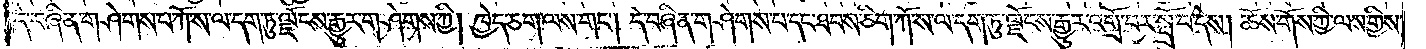དེ་བཞིན་གཤེགས་པ་ཀོ་ས་ལ་དག་ཏུ་ལྗོངས་རྒྱུར་གཤེགས་ཀྱི། ཁྱེད་ཅག་ལས་གང༌། དེ་བཞིན་གཤེགས་པ་དང་ཐབས་ཅིག་ཀོ་ས་ལ་དག་ཏུ་ལྗོངས་རྒྱུར་འགྲོ་བར་སྤྲོ་བ་དེས། ཆོས་གོས་ཀྱི་ལས་གྱིས་
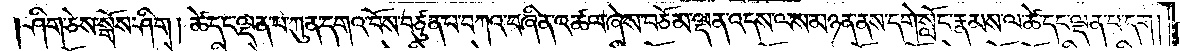ཤིག་ཅེས་སྒོས་ཤིག ། ཚེ་དང་ལྡན་པ་ཀུན་དགའ་བོས་བཙུན་པ་བཀའ་བཞིན་འཚལ་ཞེས་བཅོམ་ལྡན་འདས་ལས་མཉན་ནས་དགེ་སློང་རྣམས་ལ་ཚེ་དང་ལྡན་པ་དག །
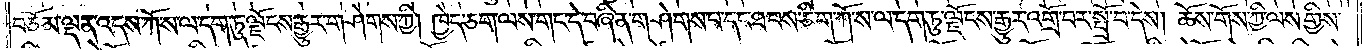བཅོམ་ལྡན་འདས་ཀོ་ས་ལ་དག་ཏུ་ལྗོངས་རྒྱུར་གཤེགས་ཀྱི། ཁྱེད་ཅག་ལས་གང་དེ་བཞིན་གཤེགས་པ་དང་ཐབས་ཅིག་ཀོ་ས་ལ་དག་ཏུ་ལྗོངས་རྒྱུར་འགྲོ་བར་སྤྲོ་བ་དེས། ཆོས་གོས་ཀྱི་ལས་གྱིས་
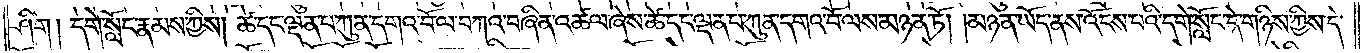ཤིག ། དགེ་སློང་རྣམས་ཀྱིས། ཚེ་དང་ལྡན་པ་ཀུན་དགའ་བོ་ལ་བཀའ་བཞིན་འཚལ་ཞེས་ཚེ་དང་ལྡན་པ་ཀུན་དགའ་བོ་ལས་མཉན་ཏོ། །མཉན་ཡོད་ནས་འོངས་པའི་དགེ་སློང་དེ་གཉིས་ཀྱིས་དེ་
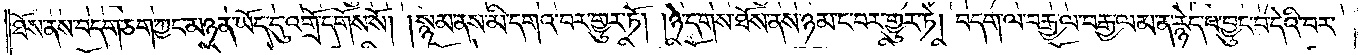ཐོས་ནས་བདག་ཅག་ཀྱང་མཉན་ཡོད་དུ་འགྲོ་དགོས་སོ། །སྙམ་ནས་མི་དགའ་བར་གྱུར་ཏོ། །ཉེ་དགས་ཐོས་ནས་ཉམ་ང་བར་གྱུར་ཏོ། བདག་ལ་བརྒྱ་ལ་བརྒྱ་ལམ་ན་རྙེད་པ་བྱུང་བ་དེའི་བར་
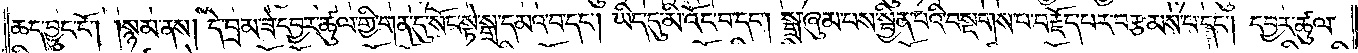ཆད་བྱུང་ངོ༌། །སྙམ་ནས། དེ་བྲམ་ཟེ་དབྱར་ཚུལ་གྱི་གན་དུ་སོང་སྟེ་སྒྲ་དམའ་བ་དང༌། ཡིད་དུ་མི་འོང་བ་དང༌། སྒྲ་ཞུམ་པས་སྦྱིན་པའི་བསྔགས་པ་བརྗོད་པར་བརྩམས་པ་དང༌། དབྱར་ཚུལ་
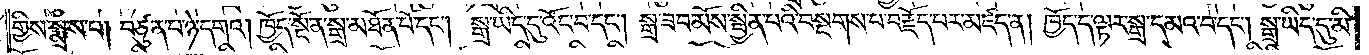གྱིས་སྨྲས་པ། བཙུན་པ་ཉེ་དགའ། ཁྱོད་སྔོན་སྒྲ་མཐོན་པོ་དང༌། སྒྲ་ཡིད་དུ་འོང་བ་དང༌། སྒྲ་ཟབ་མོ་སྦྱིན་པའི་བསྔགས་པ་བརྗོད་པར་མཛད་ན། ཁྱོད་ད་ལྟར་སྒྲ་དམའ་བ་དང༌། སྒྲ་ཡིད་དུ་མི་
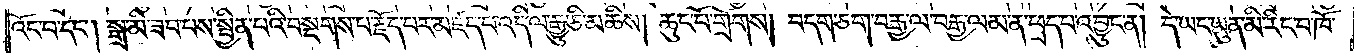འོང་བ་དང༌། སྒྲ་མི་ཟབ་པས་སྦྱིན་པའི་བསྔགས་པ་རྗོད་པར་མཛད་པ་འདི་ལ་རྒྱུ་ཅི་མཆིས། ཆུང་བོ་གྲོགས། བདག་ཅག་བརྒྱ་ལ་བརྒྱ་ལམ་ན་ཕྲད་པ་འབྱུང་ན། དེ་ཡང་ཡུན་མི་རིང་བ་ཁོ་
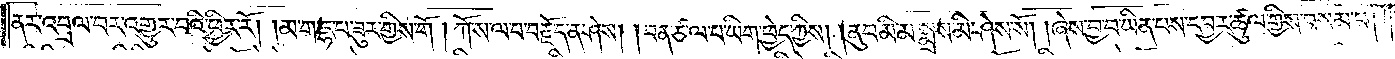ནར་འབྲལ་བར་འགྱུར་བའི་ཕྱིར་རོ། །མ་ག་དྷ་པ་ཟུར་གྱིས་གོ །ཀོ་ས་ལབ་བརྗོད་ན་ཤེས། །བན་ཙ་ལ་པ་ཡིག་ཕྱེད་ཀྱིས། །ནུབ་མི་མ་སྨྲས་མི་ཤེས་སོ། །ཞེས་བྱ་བ་ཡིན་པས་དབྱར་ཚུལ་གྱིས་བསམ་པ།
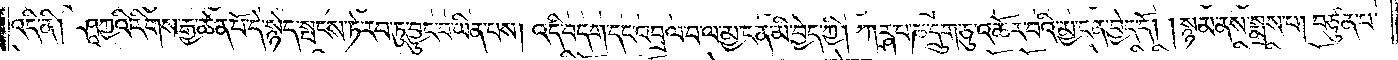འདི་ནི། ཤཱཀྱའི་རིགས་རྒྱ་ཆེན་པོ་དེ་སྙེད་སྤངས་ཏེ་རབ་ཏུ་བྱུང་བ་ཡིན་པས། འདི་བདག་དང་འབྲལ་བ་ལ་མྱ་ངན་མི་བྱེད་ཀྱི། ཀཪྴ་པ་ཎ་དྲུག་ཅུ་འཆོར་བའི་མྱ་ངན་བྱེད་དོ། །སྙམ་ནས་སྨྲས་པ། བཙུན་པ་
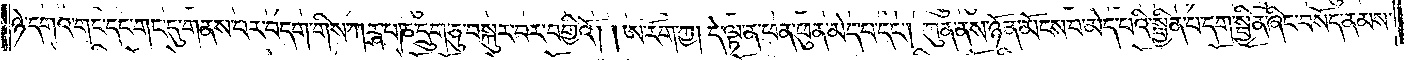ཉེ་དགའ་གང་དང་གང་དུ་གནས་པར་བདག་གིས་ཀཪྴ་པ་ཎ་དྲུག་ཅུ་བསྐུར་བར་བགྱིའོ། །ཨ་རོག་ཀྱ། དེ་ལྟ་ན་ཕན་ཕུན་མེད་པ་དང༌། ཀུན་ནས་ཉོན་མོངས་པ་མེད་པའི་སྦྱིན་པ་དག་སྦྱིན་ཞིང་བསོད་ནམས་
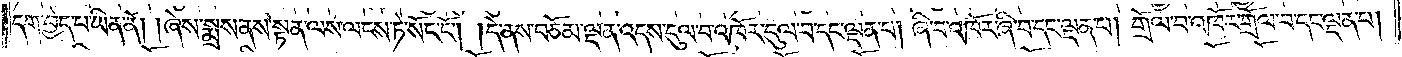དག་བྱེད་པ་ཡིན་ནོ། །ཞེས་སྨྲས་ནས་སྟན་ལས་ལངས་ཏེ་སོང་ངོ༌། །དེ་ནས་བཅོམ་ལྡན་འདས་དུལ་བ་འཁོར་དུལ་བ་དང་ལྡན་པ། ཞི་བ་འཁོར་ཞི་བ་དང་ལྡན་པ། གྲོལ་བ་འཁོར་གྲོལ་བ་དང་ལྡན་པ།
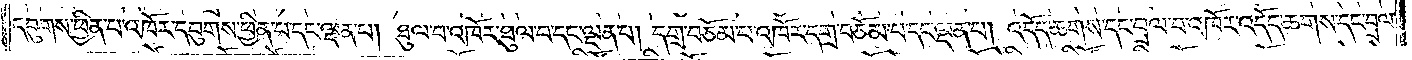དབུགས་ཕྱིན་པ་འཁོར་དབུགས་ཕྱིན་པ་དང་ལྡན་པ། ཐུལ་བ་འཁོར་ཐུལ་བ་དང་ལྡན་པ། དགྲ་བཅོམ་པ་འཁོར་དགྲ་བཅོམ་པ་དང་ལྡན་པ། འདོད་ཆགས་དང་བྲལ་བ་འཁོར་འདོད་ཆགས་དང་བྲལ་
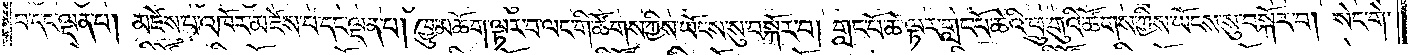བ་དང་ལྡན་པ། མཛེས་པ་འཁོར་མཛེས་པ་དང་ལྡན་པ། ཁྱུ་མཆོག་ལྟར་བ་ལང་གི་ཚོགས་ཀྱིས་ཡོངས་སུ་བསྐོར་བ། གླང་པོ་ཆེ་ལྟར་གླང་པོ་ཆེའི་ཕྲུ་གུའི་ཚོགས་ཀྱིས་ཡོངས་སུ་བསྐོར་བ། སེང་གེ་
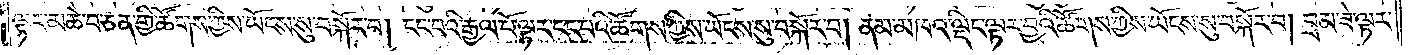ལྟར་མཆེ་བ་ཅན་གྱི་ཚོགས་ཀྱིས་ཡོངས་སུ་བསྐོར་བ། ངང་པའི་རྒྱལ་པོ་ལྟར་ངང་པའི་ཚོགས་ཀྱིས་ཡོངས་སུ་བསྐོར་བ། ནམ་མཁའ་ལྡིང་ལྟར་བྱའི་ཚོགས་ཀྱིས་ཡོངས་སུ་བསྐོར་བ། བྲམ་ཟེ་ལྟར་
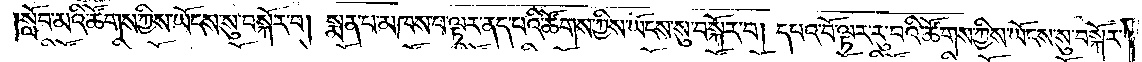སློབ་མའི་ཚོགས་ཀྱིས་ཡོངས་སུ་བསྐོར་བ། སྨན་པ་མཁས་པ་ལྟར་ནད་པའི་ཚོགས་ཀྱིས་ཡོངས་སུ་བསྐོར་བ། དཔའ་བོ་ལྟར་རུ་བའི་ཚོགས་ཀྱིས་ཡོངས་སུ་བསྐོར་
